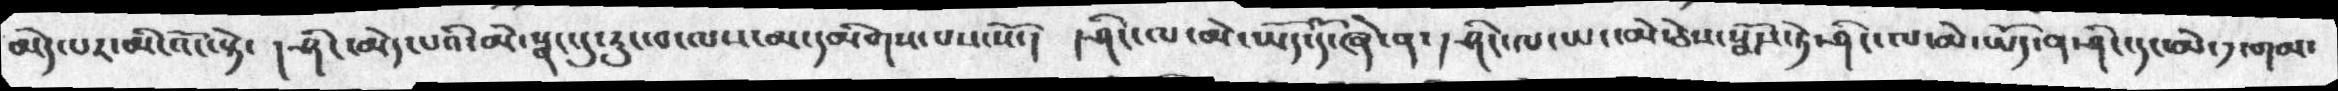མེད་པར་མི་འོང་སྟེ་ །ཤིང་མེད་པའི་མེ་སྣང་དུ་རུང་བ་ལས་མ་དམིགས་པས་སོ་།  །ཤིང་ལ་མེ་ཡོད་དོ་ཞེ་ན་། ཤིང་ལ་ཡང་མེ་ཅེས་སྨོས་ཏེ་ཤིང་ལ་མེ་ཡོད་ན་ཤིང་དང་མེ་༡་གམ་
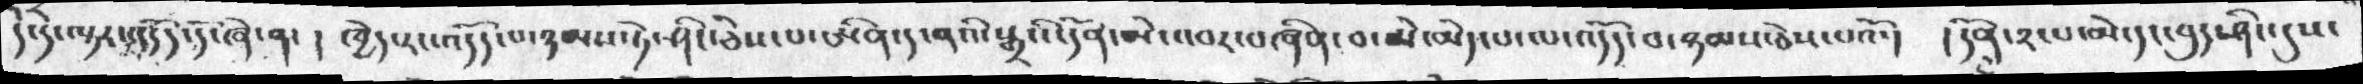དེ་དེ་ལྟར་འདོད་དོ་ཞེ་ན་ ། ཁྱེད་རང་འདོད་པ་ཉམས་ཏེ་ཤིང་ཅིས་པ་ཨིན་ད་ནའི་དོན་མེ་འབར་བཞིན་བ་མེ་མེད་པ་ལ་འདོད་པ་ཉམས་ཅེས་པའོ་།  ། དོན་༢་པ་མེད་དང་བུད་ཤིང་དུས་
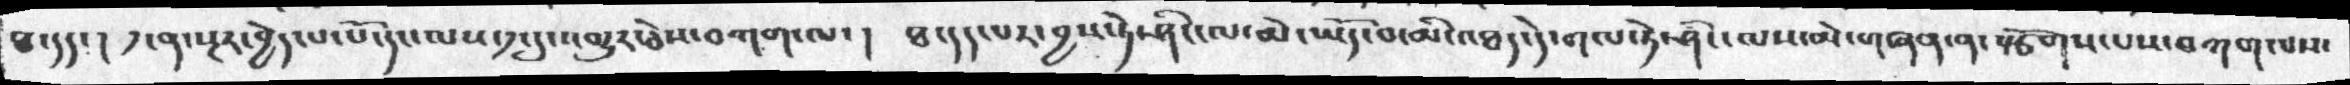ཐ་དད་།   ༡་ན་སྔར་བྱེད་པ་པོ་དང་ལས་༡་དུ་འགྱུར་ཅེས་བཀག་ལ་།  ཐ་དད་པར་བྱས་ཏེ་ཤིང་ལ་མེ་ཡོད་བ་མི་འཐད་དེ་གལ་ཏེ་ཤིང་ལས་མེ་གཞན་ན་སྩོགས་པས་བཀག་པས་
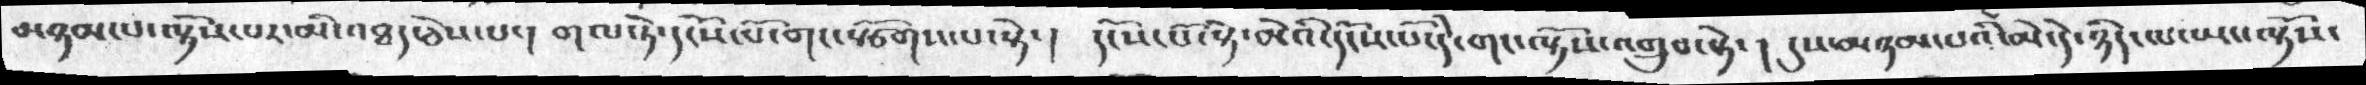མཉམ་པ་ལྟོས་པར་མི་འཐད་ཅེས་པ་།   གལ་ཏེ་དངོས་པོ་གང་སྩོགས་པ་སྟེ་།  དངོས་པོ་སྟེ་མེའི་དངོས་པོ་དེ་གང་ལྟོས་འགྲུབ་སྟེ་། དུས་མཉམ་པའི་མེ་དེ་ཉིད་ལ་ཡང་ལྟོས་
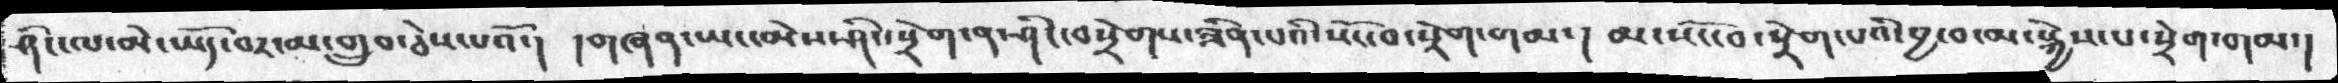ཤིང་ལ་མེ་ཡོད་བར་མ་གྲུབ་ཅེས་པའོ་།   །གཞན་ཡང་མེས་ཤིང་སྲོག་ན་ཤིང་བསྲེགས་ཟིན་པའི་སོང་བ་སྲེག་གམ་།   མ་སོང་བ་སྲེག་པའི་བྱ་བ་མ་སྐྱེས་པ་སྲེག་གམ་།
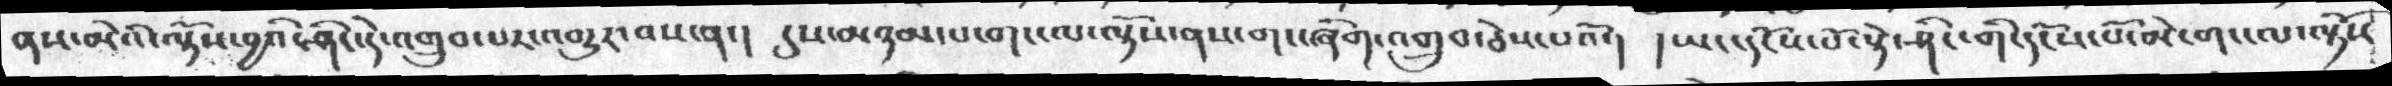ནས་མེའི་ལྟོས་བྱའི་ཤིང་དེ་འགྲུབ་པར་འགྱུར་བས་ན་།  དུས་མཉམ་པ་གང་ལ་ལྟོས་ནས་གང་ཞིག་འགྲུབ་ཅེས་པའོ་།  ། ཡང་དངོས་པོ་སྟེ་ཤེང་གི་དངོས་པོ་མེ་གང་ལ་ལྟོས
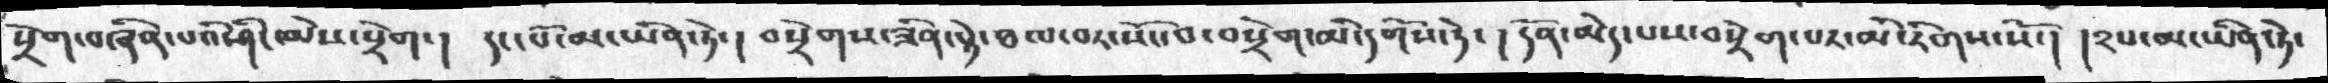སྲོག་བཞིན་པའི་ཤིང་མེས་སྲེག་།  དང་པོ་མ་ཡིན་ཏེ་།  བསྲེགས་ཟིན་སྟེ་ཐལ་བར་སོང་བ་བསྲེག་མི་དགོས་ཏེ་ ། དོན་མེད་པས་བསྲེག་པར་མི་རིགས་སོ་།  །༢པ་མ་ཡིན་ཏེ་
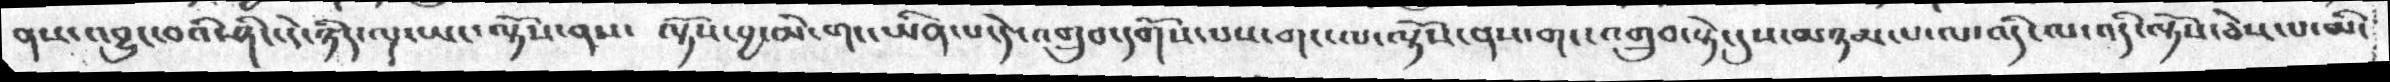ནས་འབྱུང་བའི་ཤིང་དེ་ཉིད་ལྔ་ཡང་ལྟོས་ནས་ ལྟོས་བྱ་མེ་གང་ཡིན་པ་དེ་འགྲུབ་དགོས་པས་གང་ལ་ལྟོས་ནས་གང་འགྲུབ་སྟེ་དུས་མཉམ་པ་ལ་འདི་ལ་འདི་ལྟོས་ཅེས་པ་མི་
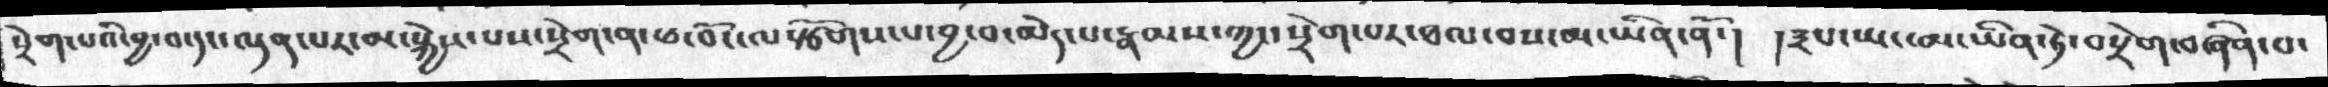སྲེག་པའི་བྱ་བ་དང་ལྡན་པར་མ་སྐྱེས་པས་སྲེག་ན་ཕ་བོང་ལསྩོགས་པ་བྱ་བ་མེད་པ་རྣམས་ཀྱང་སྲེག་པར་ཐལ་བས་མ་ཡིན་ནོ་།  །༣པ་ཡང་མ་ཡིན་ཏེ་བསྲེག་བཞིན་པ་
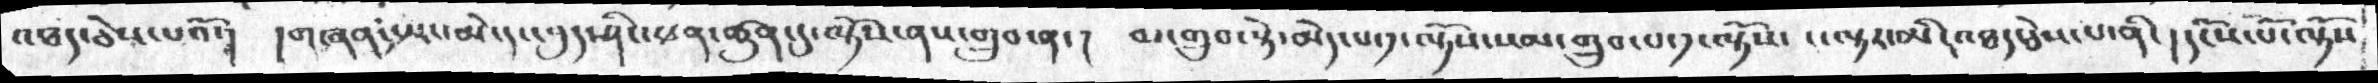འཐད་ཅེས་པའོ་། །གཞན་ཡང་མེ་དང་བུད་ཤིང་ཕན་ཚུན་དུ་ལྟོས་ནས་གྲུབ་ན་།  མ་གྲུབ་སྟེ་མེད་པ་༡་ལྟོས་སམ་གྲུབ་པ་༡་ལྟོས་ ་ལྟར་མི་འཐད་ཅེས་པ་ནི་། དངོས་པོ་ལྟོས
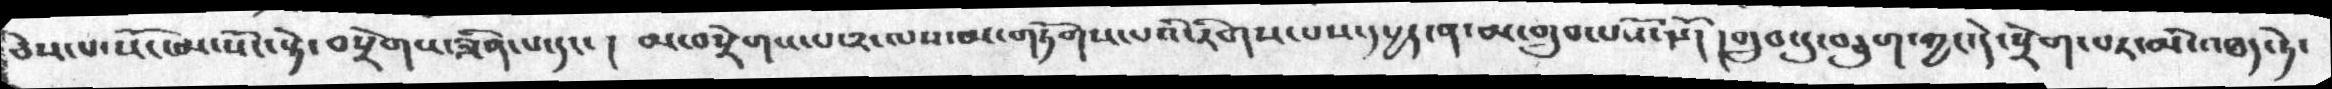ཅེས་པ་སོང་མ་སོང་སྟེ་བསྲེགས་ཟིན་པ་དང་།  མ་བསྲེགས་པ་༢་ལས་མ་གཏོགས་པའི་རིགས་པས་དཔྱད་ན་མ་གྲུབ་པས་སོ་། །གྲུབ་དུ་བཅུག་ཀྱང་དེ་སྲེག་པར་མི་འཐད་ཏེ་
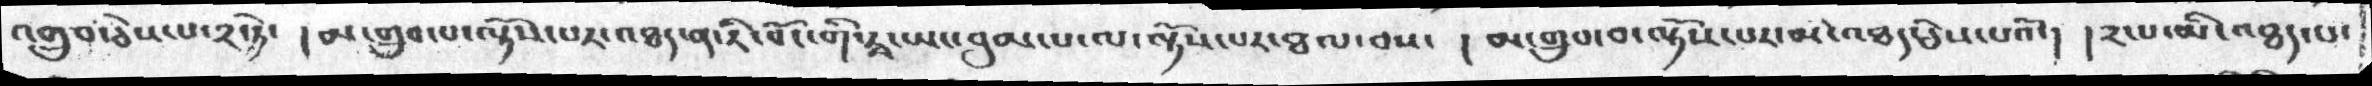འགྲུབ་ཅེས་པ་༢་ཏེ་ །མ་གྲུབ་པ་ལྟོས་པར་འཐད་ན་རི་བོང་གི་རྭ་ཡང་བུམ་པ་ལ་ལྟོས་པར་ཐལ་བས་ ། མ་གྲུབ་བ་ལྟོས་པར་མི་འཐད་ཅེས་པའོ་། །༢་པ་མི་འཐད་པ་
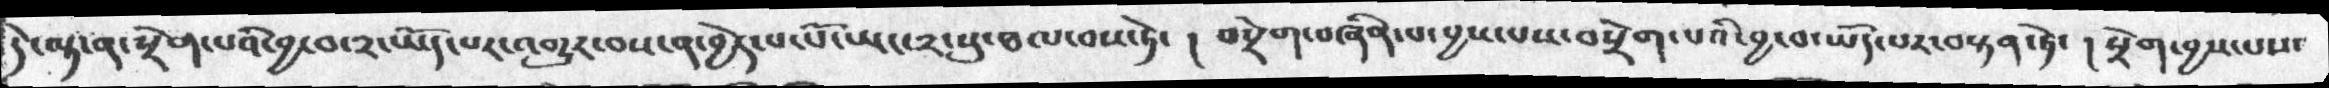དེ་ལྟ་ན་སྲེག་པའི་བྱ་བ་༢་ཡོད་པར་འགྱུར་བས་ན་བྱེད་པ་པོ་ཡང་༢་སུ་ཐལ་བས་ཏེ་ ། བསྲེག་བཞིན་པ་བྱས་པས་བསྲེག་པའི་བྱ་བ་ཡོད་པར་བསྟན་ཏེ་། སྲེག་བྱས་པས་
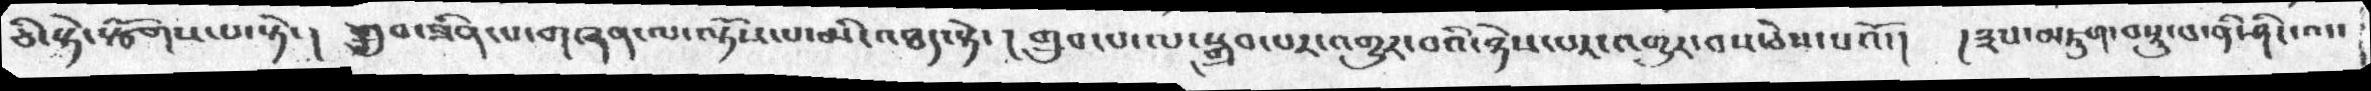ཅི་སྟེ་སྩོགས་པ་སྟེ་།  གྲུབ་ཟིན་པ་གཞན་ལ་ལྟོས་པ་མི་འཐད་སྟེ་། གྲུབ་པ་ལ་སྒྲུབ་པར་འགྱུར་བའི་ཉེས་པར་འགྱུར་བས་ཅེས་པའོ་།  །༣པ་མཇུག་བསྡུ་བ་ནི་ཤིང་འད་
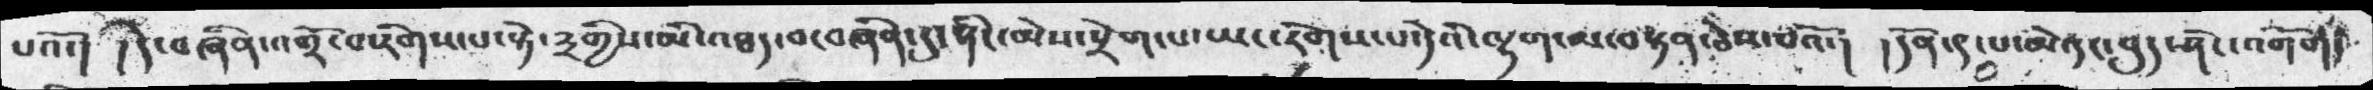པའོ་། །དེ་བཞིན་འགྲོ་བ་རེགས་པ་སྟེ་༣གྱིས་མི་འཐད་བ་བཞིན་དུ་ཤིང་མེས་སྲེག་པ་ཡང་རེགས་པ་དེའི་ལྷག་མ་བསྟན་ཅེས་པའོ་།  །དོན་༩་པ་མེ་དང་བུད་ཤིང་འགོག་
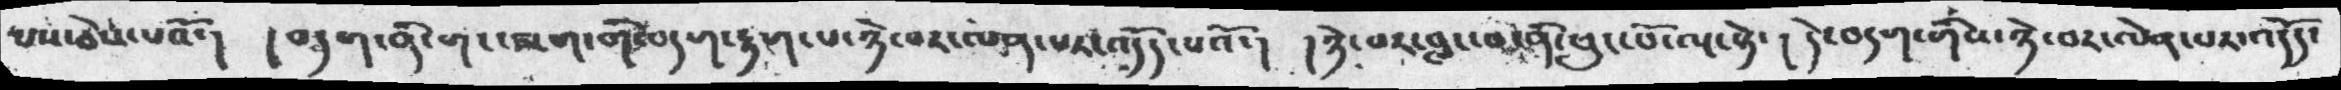པས་ཅེས་པའོ་།   །བདག་ནི་གང་ཟག་གི་བདག་རྟག་པ་ཉེ་བར་ལན་པར་འདོད་པའོ་།  །ཉེ་བར་བླང་བ་ནི་ཕུང་པོ་ལྔ་སྟེ་ །  དེ་བདག་གིས་ཉེ་བར་ལེན་པར་འདོད་
